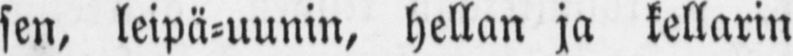sen, leipä-uunin, hellan ja kellarin
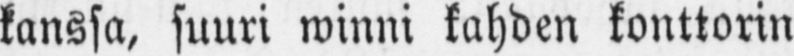kanssa, suuri winni kahden konttorin
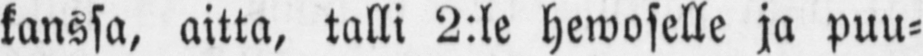kanssa, aitta, talli 2:le hewoselle ja puu-
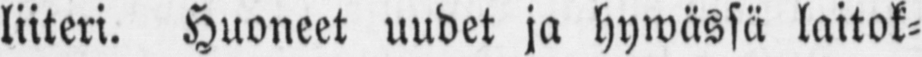liiteri. Huoneet uudet ja hywässä laitok-
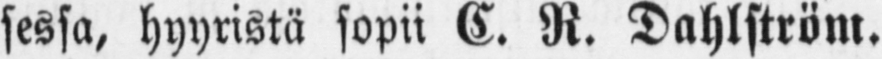sessa, hyyristä sopii C. R. Dahlström.
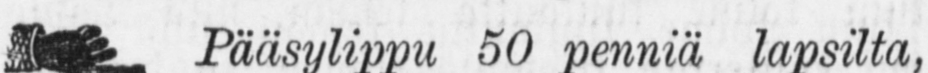Pääsylippu 50 penniä lapsilta,
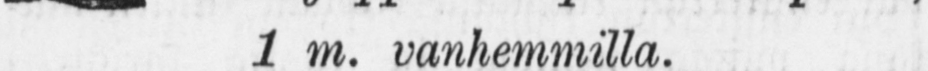1 m. vanhemmilla.
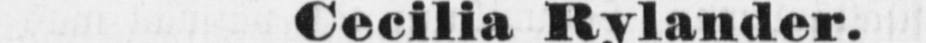Cecilia Rylander.
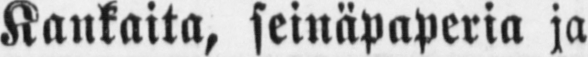Kankaita, seinäpaperia ja
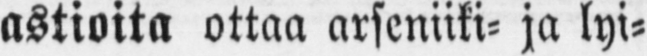astioita ottaa arseniiki- ja lyi-
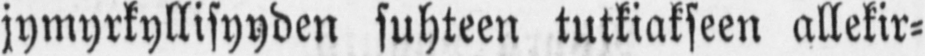jymyrkyllisyyden suhteen tutkiakseen allekir-
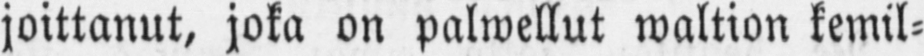joittanut, joka on palwellut waltion kemil-
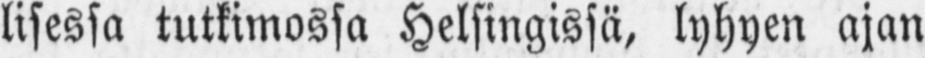lisessa tutkimossa Helsingissä, lyhyen ajan
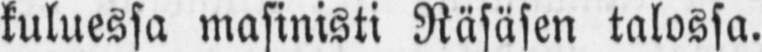kuluessa masinisti Räsäsen talossa.
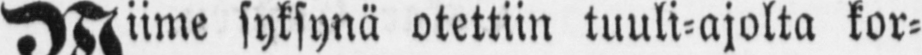Wiime syksynä otettiin tuuli-ajolta kor-
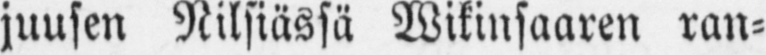juusen Nilsiässä Wikinsaaren ran-
